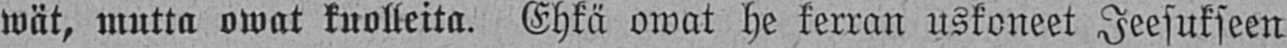wät, mutta owat kuolleita. Ehkä owat he kerran uskoneet Jeesukseen
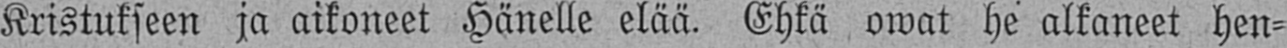Kristukseen ja aikoneet Hänelle elää. Ehkä owat he alkaneet hen-
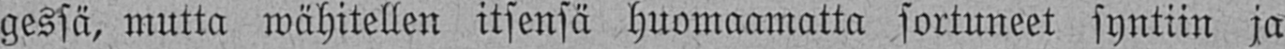gessä, mutta wähitellen itsensä huomaamatta sortuneet syntiin ja
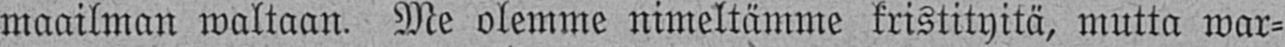maailman waltaan. Me olemme nimeltämme kristityitä, mutta war-
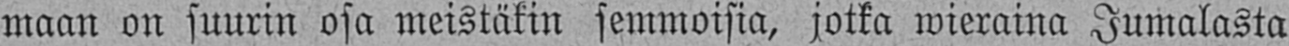maan on suurin osa meistäkin semmoisia, jotka wieraina Jumalasta
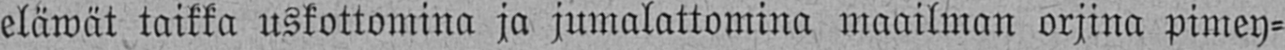eläwät taikka uskottomina ja jumalattomina maailman orjina pimey-
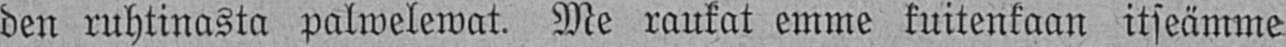den ruhtinasta palwelewat. Me raukat emme kuitenkaan itseämme
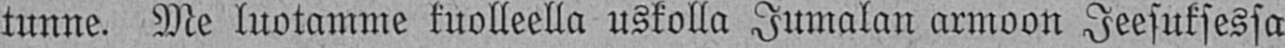tunne. Me luotamme kuolleella uskolla Jumalan armoon Jeesuksessa
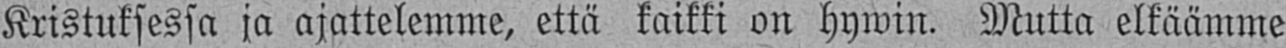Kristuksessa ja ajattelemme, että kaikki on hywin. Mutta elkäämme
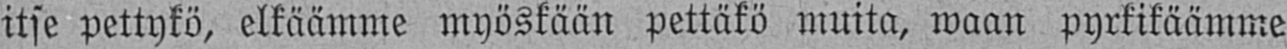itse pettykö, elkäämme myöskään pettäkö muita, waan pyrkikäämme
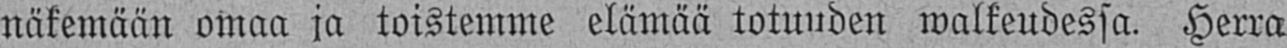näkemään omaa ja toistemme elämää totuuden walkeudessa. Herra
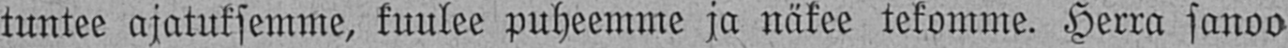tuntee ajatuksemme, kuulee puheemme ja näkee tekomme. Herra sanoo
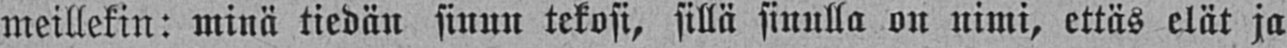meillekin: minä tiedän sinun tekosi, sillä sinulla on nimi, ettäs elät ja
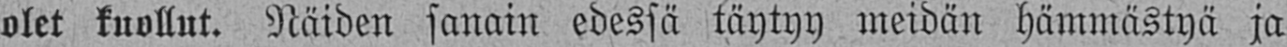olet kuollut. Näiden sanain edessä täytyy meidän hämmästyä ja
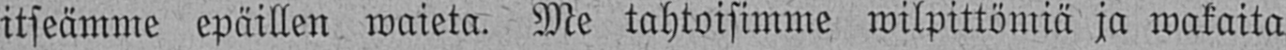itseämme epäillen waieta. Me tahtoisimme wilpittömiä ja wakaita
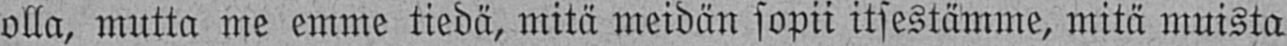olla, mutta me emme tiedä, niitä meidän sopii itsestämme, mitä muista
